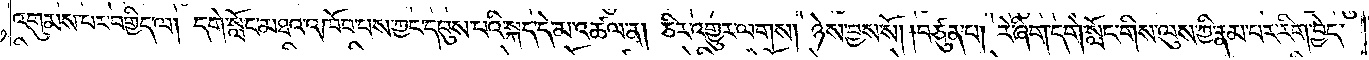འགུམས་པར་བགྱིད་ལ། དགེ་སློང་མཐའ་འཁོབ་པས་ཀྱང་དབུས་པའི་སྐད་དེ་མ་འཚལ་ན། ཅིར་འགྱུར་ལགས། ཉེས་བྱས་སོ། །བཙུན་པ། རེ་ཞིག་དགེ་སློང་གིས་ལུས་ཀྱི་རྣམ་པར་རིག་བྱེད་
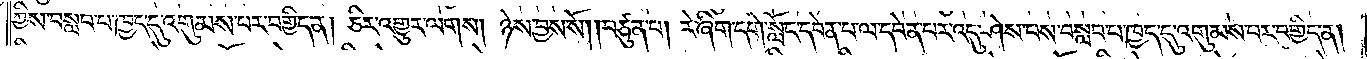ཀྱིས་བསླབ་པ་ཁྱད་དུ་འགུམས་པར་བགྱིད་ན། ཅིར་འགྱུར་ལགས། ཉེས་བྱས་སོ། །བཙུན་པ། རེ་ཞིག་དགེ་སློང་དབེན་པ་ལ་དབེན་པར་འདུ་ཤེས་པས་བསླབ་པ་ཁྱད་དུ་འགུམས་པར་བགྱིད་ན།
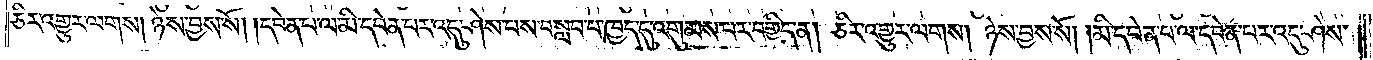ཅིར་འགྱུར་ལགས། ཉེས་བྱས་སོ། །དབེན་པ་ལ་མི་དབེན་པར་འདུ་ཤེས་པས་བསླབ་པ་ཁྱད་དུ་འགུམས་པར་བགྱིད་ན། ཅིར་འགྱུར་ལགས། ཉེས་བྱས་སོ། །མི་དབེན་པ་ལ་དབེན་པར་འདུ་ཤེས་
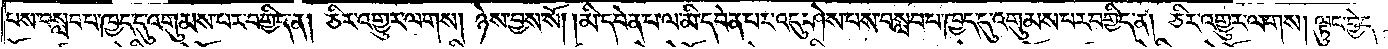པས་བསླབ་པ་ཁྱད་དུ་འགུམས་པར་བགྱིད་ན། ཅིར་འགྱུར་ལགས། ཉེས་བྱས་སོ། །མི་དབེན་པ་ལ་མི་དབེན་པར་འདུ་ཤེས་པས་བསླབ་པ་ཁྱད་དུ་འགུམས་པར་བགྱིད་ན། ཅིར་འགྱུར་ལགས། ལྟུང་བྱེད་
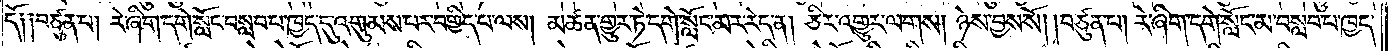དོ༑ ༑བཙུན་པ། རེ་ཞིག་དགེ་སློང་བསླབ་པ་ཁྱད་དུ་འགུམས་པར་བགྱིད་པ་ལས། མཚན་གྱུར་ཏེ་དགེ་སློང་མར་རེད་ན། ཅིར་འགྱུར་ལགས། ཉེས་བྱས་སོ། །བཙུན་པ། རེ་ཞིག་དགེ་སློང་མ་བསླབ་པ་ཁྱད་
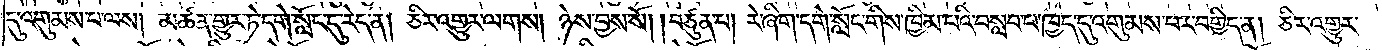དུ་འགུམས་པ་ལས། མཚན་གྱུར་ཏེ་དགེ་སློང་དུ་རེད་ན། ཅིར་འགྱུར་ལགས། ཉེས་བྱས་སོ། །བཙུན་པ། རེ་ཞིག་དགེ་སློང་གིས་ཁྱིམ་པའི་བསླབ་པ་ཁྱད་དུ་འགུམས་པར་བགྱིད་ན། ཅིར་འགྱུར་
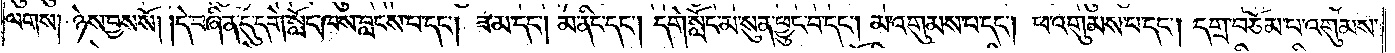ལགས། ཉེས་བྱས་སོ། །དེ་བཞིན་དུ་དགེ་སློང་ཁས་བླངས་པ་དང༌། ཟ་མ་དང༌། མ་ནིང་དང༌། དགེ་སློང་མ་སུན་ཕྱུང་བ་དང༌། མ་འགུམས་པད་དང༌། ཕ་འགུམས་པ་དང༌། དགྲ་བཅོམ་པ་འགུམས་
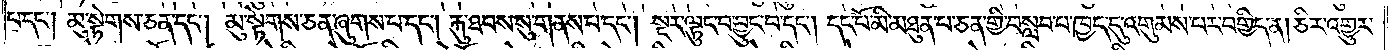པ་དང༌། མུ་སྟེགས་ཅན་དང༌། མུ་སྟེགས་ཅན་ཞུགས་པ་དང༌། རྐུ་ཐབས་སུ་གནས་པ་དང༌། སྔར་ལྟུང་བ་བྱུང་བ་དང༌། དང་པོ་མི་མཐུན་པ་ཅན་གྱི་བསླབ་པ་ཁྱད་དུ་འགུམས་པར་བགྱིད་ན། ཅིར་འགྱུར་
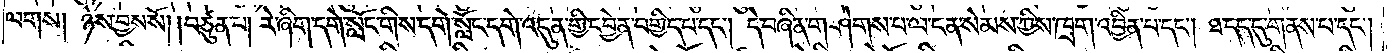ལགས། ཉེས་བྱས་སོ། །བཙུན་པ། རེ་ཞིག་དགེ་སློང་གིས་དགེ་སློང་དགེ་འདུན་གྱི་དབྱེན་བགྱིད་པ་དང༌། དེ་བཞིན་གཤེགས་པ་ལ་ངན་སེམས་ཀྱིས་ཁྲག་འབྱིན་པ་དང༌། ཐ་དད་དུ་གནས་པ་དང༌།
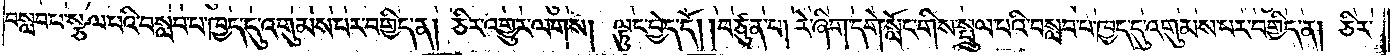བསླབ་པ་སྩལ་པའི་བསླབ་པ་ཁྱད་དུ་འགུམས་པར་བགྱིད་ན། ཅིར་འགྱུར་ལགས། ལྟུང་བྱེད་དོ། །བཙུན་པ། རེ་ཞིག་དགེ་སློང་གིས་སྤྲུལ་པའི་བསླབ་པ་ཁྱད་དུ་འགུམས་པར་བགྱིད་ན། ཅིར་
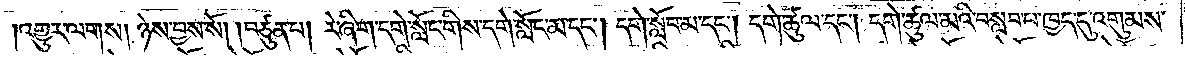།འགྱུར་ལགས། ཉེས་བྱས་སོ། །བཙུན་པ། རེ་ཞིག་དགེ་སློང་གིས་དགེ་སློང་མ་དང༌། དགེ་སློབ་མ་དང༌། དགེ་ཚུལ་དང༌། དགེ་ཚུལ་མའི་བསླབ་པ་ཁྱད་དུ་འགུམས་
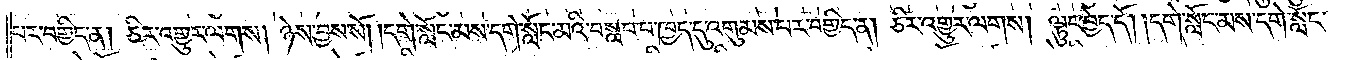པར་བགྱིད་ན། ཅིར་འགྱུར་ལགས། ཉེས་བྱས་སོ། །དགེ་སློང་མས་དགེ་སློང་མའི་བསླབ་པ་ཁྱད་དུ་འགུམས་པར་བགྱིད་ན། ཅིར་འགྱུར་ལགས། ལྟུང་བྱེད་དོ། །དགེ་སློང་མས་དགེ་སློང་
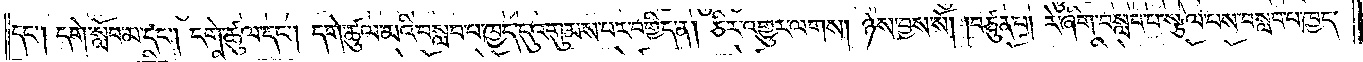དང༌། དགེ་སློང་མ་དང༌། དགེ་ཚུལ་དང༌། དགེ་ཚུལ་མའི་བསླབ་པ་ཁྱད་དུ་འགུམས་པར་བགྱིད་ན། ཅིར་འགྱུར་ལགས། ཉེས་བྱས་སོ། །བཙུན་པ། རེ་ཞིག་བསླབ་པ་སྩལ་པས་བསླབ་པ་ཁྱད་
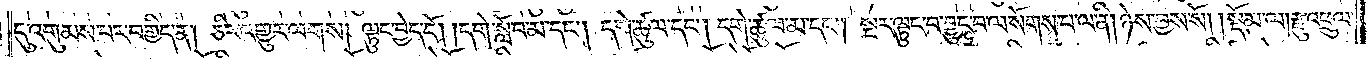དུ་འགུམས་པར་བགྱིད་ན། ཅིར་འགྱུར་ལགས། ལྟུང་བྱེད་དོ། །དགེ་སློང་མ་དང༌། དགེ་ཚུལ་དང༌། དགེ་ཚུལ་མ་དང༌། སྔར་ལྟུང་བ་བྱུང་བ་ལ་སོགས་པ་ལ་ནི། ཉེས་བྱས་སོ།    །སྡོམ་ལ། རྫུ་འཕྲུལ་
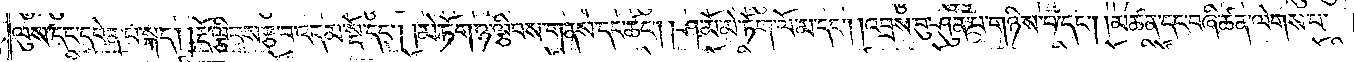ལུས་དང་དབེན་པ་སྐད། །རྡོ་ལྕིབས་རྩ་བ་འདམ་སྔོ་དང༌། །མེ་ཏོག་ཉ་ལྕིབས་གནས་དང་ཚང༌། །ཤ་མོ་མེ་ཏོག་ལོ་མ་དང༌། །འབྲས་བུ་ཤུན་པ་གཉིས་པ་དང༌། །མཚན་དང་བཞི་ཚན་ལེགས་པ་
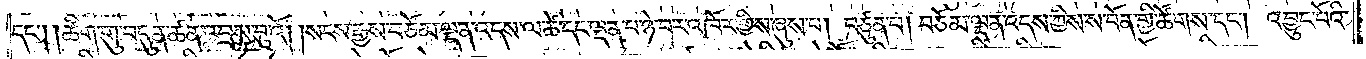དང༌། །ཚིག་གུ་བདུན་ཚན་འབྲས་བུའོ། །སངས་རྒྱས་བཅོམ་ལྡན་འདས་ལ་ཚེ་དང་ལྡན་པ་ཉེ་བར་འཁོར་གྱིས་ཞུས་པ། བཙུན་པ། བཅོམ་ལྡན་འདས་ཀྱིས་ས་བོན་གྱི་ཚོགས་དང༌། འབྱུང་པོའི་
